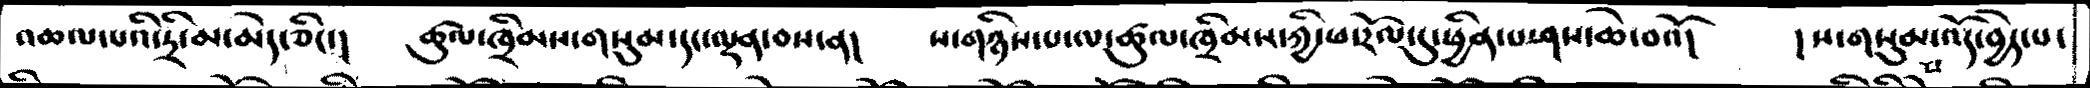འཆལ་པའི་དྲི་མ་མེད་ཅིང་།  ཚུལ་ཁྲིམས་གསུམ་དང་ལྡན་བས་ན།   ས་གཉིས་པ་ལ་ཚུལ་ཁྲིམས་ཀྱི་ཕ་རོལ་དུ་ཕྱིན་པ་ཤས་ཆེ་བའོ།   །ས་གསུམ་པ་འོད་བྱེད་པ་
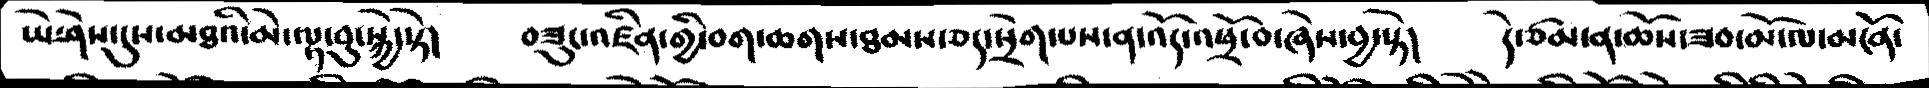ཡེ་ཤེས་དུས་མཐའི་མེ་ལྟ་བུ་སྐྱེ་སྟེ།    བཟུང་འཛིན་གྱི་བག་ཆགས་ཐམས་ཅད་སྲེགས་པས་ན་འོད་འཕྲོ་བ་ཞེས་བྱ་སྟེ།    དེ་ཙམ་ན་ཆོས་ཟབ་མོ་ལ་མངོན་
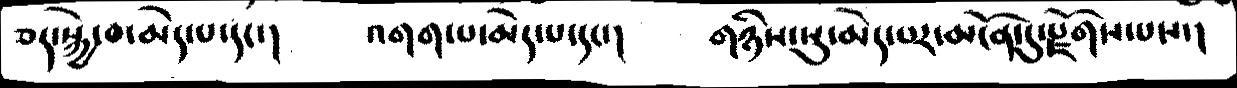ཅད་སྐྱེ་བ་མེད་པ་དང་།    འགག་པ་མེད་པ་དང་།    གཉིས་སུ་མེད་པར་མངོན་དུ་རྫོགས་པས་།
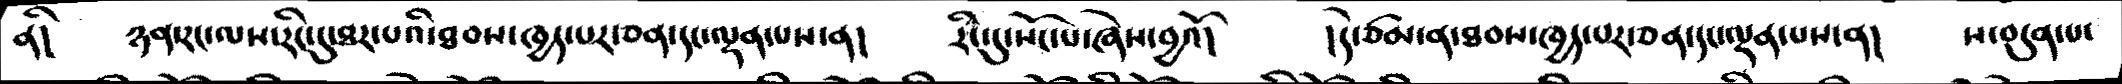ནི།    ཉན་རང་ལས་རིང་དུ་ཐར་པའི་ཐབས་ཁྱད་པར་ཅན་དང་ལྡན་པས་ན།   རིང་དུ་སོང་པ་ཞེས་བྱའོ།    །དེ་ཙམ་ན་ཐབས་ཁྱད་པར་ཅན་དང་ལྡན་པས་ན།   ས་བདུན་པ་
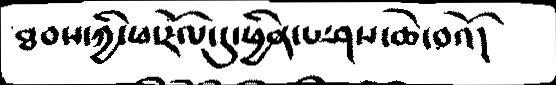ཐབས་ཀྱི་ཕ་རོལ་དུ་ཕྱིན་པ་ཤས་ཆེ་བའོ།
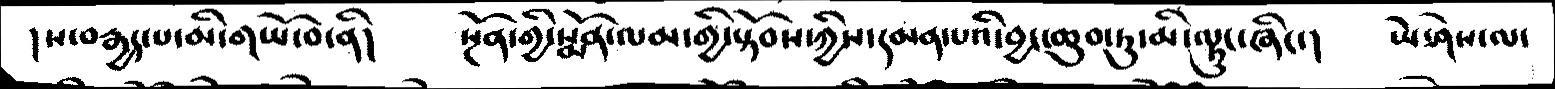།ས་བརྒྱད་པ་མི་གཡོ་བ་ནི།    སྔོན་གྱི་སྨོན་ལམ་གྱི་སྟོབས་ཀྱིས་དམན་པའི་བྱང་ཆུབ་ཏུ་མི་ལྟུང་ཞིང་།   ཡེ་ཤེས་ལ་
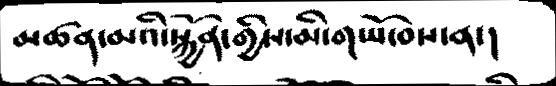མཚན་མའི་སྐྱོན་གྱིས་མི་གཡོ་བས་ན་།
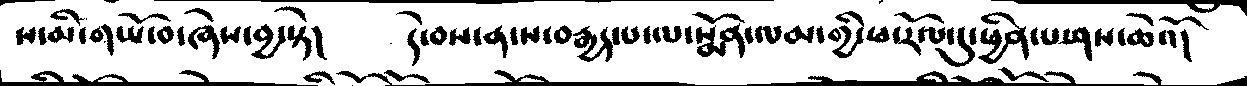ས་མི་གཡོ་བ་ཞེས་བྱ་སྟེ།    དེ་བས་ན་ས་བརྒྱད་པ་ལ་སྨོན་ལམ་གྱི་ཕ་རོལ་དུ་ཕྱིན་པ་ཤས་ཆེའོ།
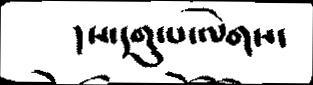།ས་དགུ་པ་ལེགས་
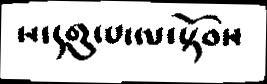ས་དགུ་པ་ལ་སྟོབས
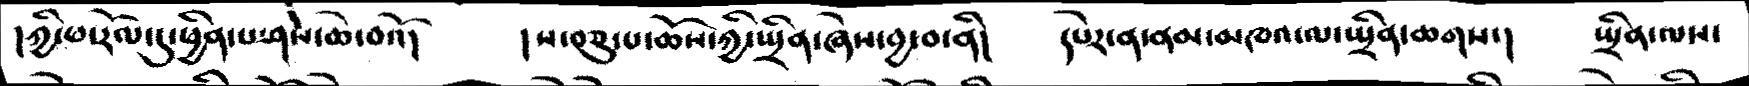།ཀྱི་ཕ་རོལ་དུ་ཕྱིན་པ་ཤས་ཆེ་བའོ།   །ས་བཅུ་པ་ཆོས་ཀྱི་སྤྲིན་ཞེས་བྱ་བ་ནི།   དཔེར་ན་ནམ་མཁའ་ལ་སྤྲིན་ཆགས་།   སྤྲིན་ལས་
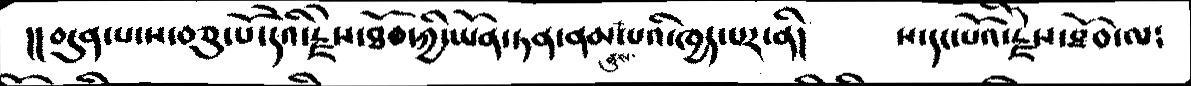།།བདུན་པ་ས་བཅུ་པོ་དེའི་རྗེས་ཐོབ་ཀྱི་ཡོན་ཏན་ནམ་རྒུས་པའི་ཁྱད་པར་ནི།    ས་དང་པོའི་རྗེས་ཐོབ་ལ༴
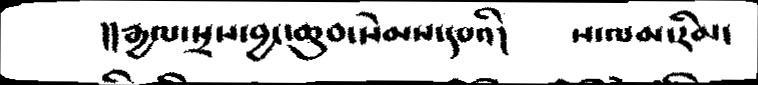།།རྒྱལ་སྲས་བྱང་ཆུབ་སེམས་དཔའི།   ས་ལམ་རིམ་
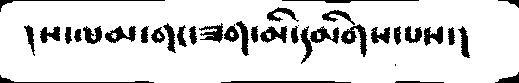།ས་ལམ་གང་ཟག་མི་དམིགས་པས་།
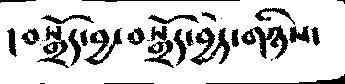།བསྒྲོད་བྱ་བསྒྲོད་བྱེད་གཉིས་
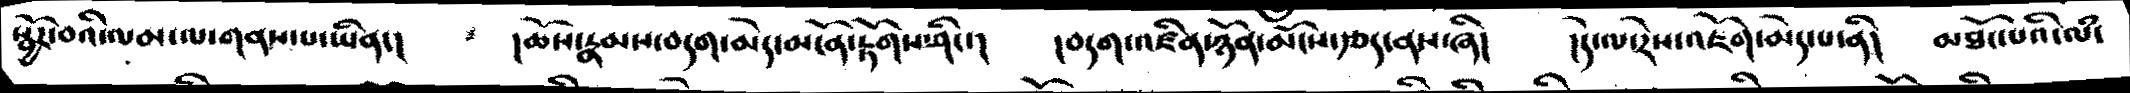སྦྱོར་བའི་ལམ་ལ་གནས་པ་ཡིན་།    །ཆོས་རྣམས་བདག་མེད་མངོན་རྟོགས་ཤིང་།   །བདག་འཛིན་ཉོན་མོངས་རྩད་ནས་ཞི།   །དེ་ལ་རེས་འཇོག་མེད་པ་ནི།   མཐོང་པའི་ལཾ་
